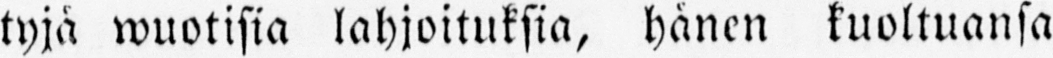tyjä wuotisia lahjoituksia, hänen kuoltuansa
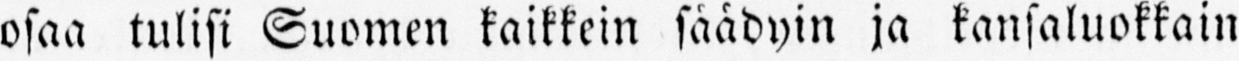osaa tulisi Suomen kaikkein säädyin ja kansaluokkain
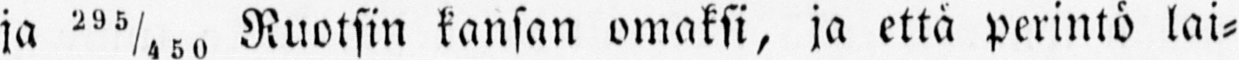ja Ruotsin kansan omaksi, ja että perintö lai-
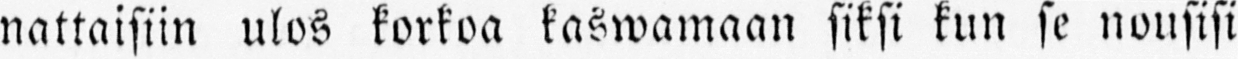nattaisiin ulos korkoa kaswamaan siksi kun se nousisi
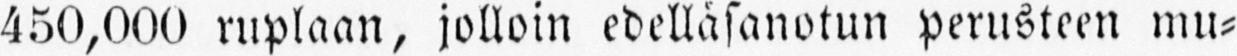450,000 ruplaan, jolloin edelläsanotun perusteen mu-
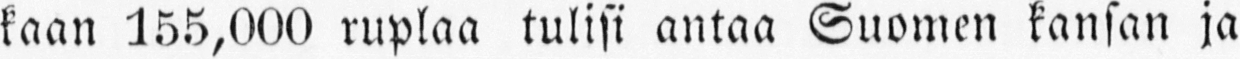kaan 155,000 ruplaa tulisi antaa Suomen kansan ja
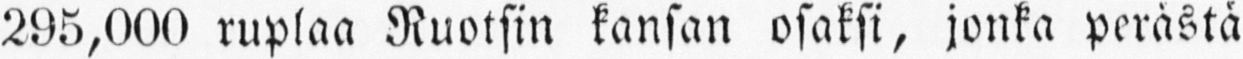295.000 ruplaa Ruotsin kansan osaksi, jonka perästä
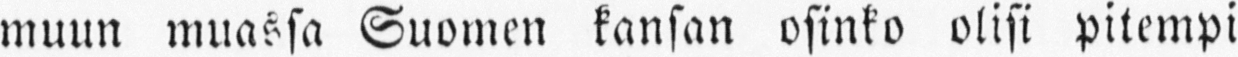muun muassa Suomen kansan osinko olisi pitempi
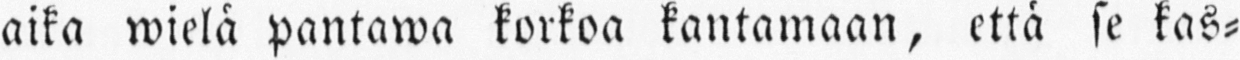aika wielä pantawa korkoa kantamaan, että se käs-
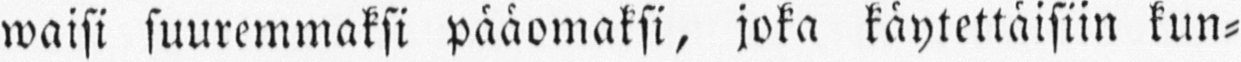waisi suuremmaksi pääomaksi, joka käytettäisiin kun-
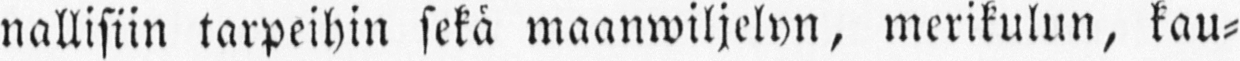nallisiin tarpeihin sekä maanwiljelyn, merikulun, kau-
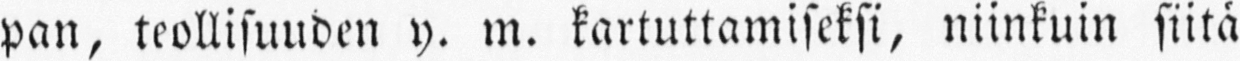pan, teollisuuden y. m. kartuttamiseksi, niinkuin siitä
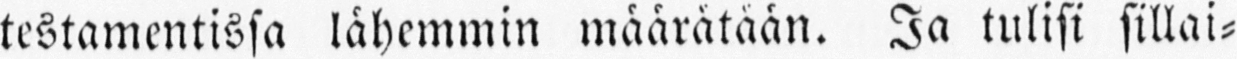testamentissa lähemmin määrätään. Ja tulisi sillai-
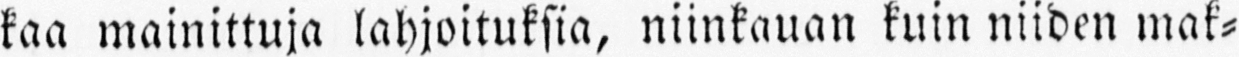kaa mainittuja lahjoituksia, niinkauan kuin niiden mak-
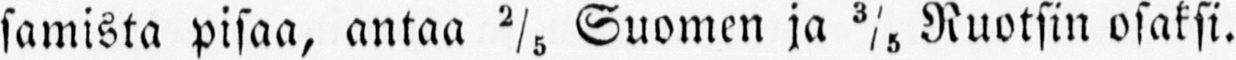samista pisaa, antaa ⅖ Suomen ja ⅗ Ruotsin osaksi.
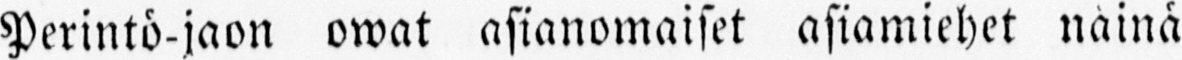Perintö-jaon owat asianomaiset asiamiehet näinä
